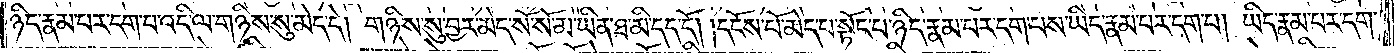ཉིད་རྣམ་པར་དག་པ་འདི་ལ་གཉིས་སུ་མེད་དེ། གཉིས་སུ་བྱར་མེད་སོ་སོ་མ་ཡིན་ཐ་མི་དད་དོ། །དངོས་པོ་མེད་པ་སྟོང་པ་ཉིད་རྣམ་པར་དག་པས་ཡིད་རྣམ་པར་དག་པ། ཡིད་རྣམ་པར་དག་
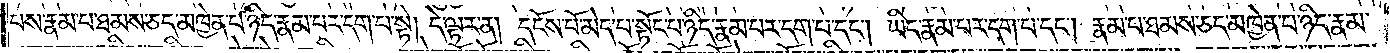པས་རྣམ་པ་ཐམས་ཅད་མཁྱེན་པ་ཉིད་རྣམ་པར་དག་པ་སྟེ། དེ་ལྟར་ན། དངོས་པོ་མེད་པ་སྟོང་པ་ཉིད་རྣམ་པར་དག་པ་དང༌། ཡིད་རྣམ་པར་དག་པ་དང༌། རྣམ་པ་ཐམས་ཅད་མཁྱེན་པ་ཉིད་རྣམ་
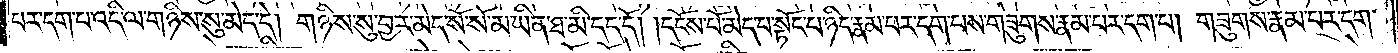པར་དག་པ་འདི་ལ་གཉིས་སུ་མེད་དེ། གཉིས་སུ་བྱར་མེད་སོ་སོ་མ་ཡིན་ཐ་མི་དད་དོ། །དངོས་པོ་མེད་པ་སྟོང་པ་ཉིད་རྣམ་པར་དག་པས་གཟུགས་རྣམ་པར་དག་པ། གཟུགས་རྣམ་པར་དག་
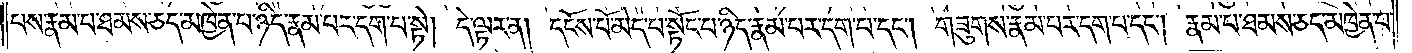པས་རྣམ་པ་ཐམས་ཅད་མཁྱེན་པ་ཉིད་རྣམ་པར་དག་པ་སྟེ། དེ་ལྟར་ན། དངོས་པོ་མེད་པ་སྟོང་པ་ཉིད་རྣམ་པར་དག་པ་དང༌། གཟུགས་རྣམ་པར་དག་པ་དང༌། རྣམ་པ་ཐམས་ཅད་མཁྱེན་པ་
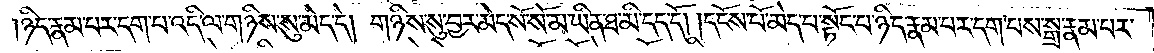ཉིད་རྣམ་པར་དག་པ་འདི་ལ་གཉིས་སུ་མེད་དེ། གཉིས་སུ་བྱར་མེད་སོ་སོ་མ་ཡིན་ཐ་མི་དད་དོ། །དངོས་པོ་མེད་པ་སྟོང་པ་ཉིད་རྣམ་པར་དག་པས་སྒྲ་རྣམ་པར་
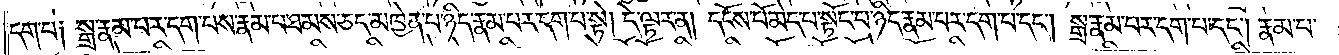དག་པ༑ སྒྲ་རྣམ་པར་དག་པས་རྣམ་པ་ཐམས་ཅད་མཁྱེན་པ་ཉིད་རྣམ་པར་དག་པ་སྟེ། དེ་ལྟར་ན། དངོས་པོ་མེད་པ་སྟོང་པ་ཉིད་རྣམ་པར་དག་པ་དང༌། སྒྲ་རྣམ་པར་དག་པ་དང༌། རྣམ་པ་
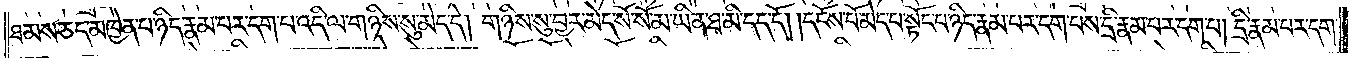ཐམས་ཅད་མཁྱེན་པ་ཉིད་རྣམ་པར་དག་པ་འདི་ལ་གཉིས་སུ་མེད་དེ། གཉིས་སུ་བྱར་མེད་སོ་སོ་མ་ཡིན་ཐ་མི་དད་དོ། །དངོས་པོ་མེད་པ་སྟོང་པ་ཉིད་རྣམ་པར་དག་པས་དྲི་རྣམ་པར་དག་པ། དྲི་རྣམ་པར་དག་
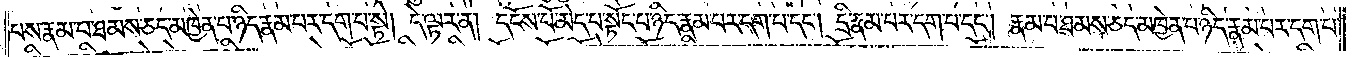པས་རྣམ་པ་ཐམས་ཅད་མཁྱེན་པ་ཉིད་རྣམ་པར་དག་པ་སྟེ། དེ་ལྟར་ན། དངོས་པོ་མེད་པ་སྟོང་པ་ཉིད་རྣམ་པར་དག་པ་དང༌། དྲི་རྣམ་པར་དག་པ་དང༌། རྣམ་པ་ཐམས་ཅད་མཁྱེན་པ་ཉིད་རྣམ་པར་དག་པ་
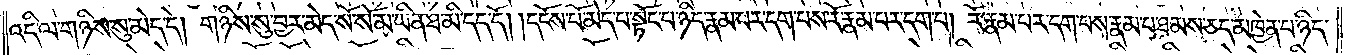འདི་ལ་གཉིས་སུ་མེད་དེ། གཉིས་སུ་བྱར་མེད་སོ་སོ་མ་ཡིན་ཐ་མི་དད་དོ། །དངོས་པོ་མེད་པ་སྟོང་པ་ཉིད་རྣམ་པར་དག་པས་རོ་རྣམ་པར་དག་པ། རོ་རྣམ་པར་དག་པས་རྣམ་པ་ཐམས་ཅད་མཁྱེན་པ་ཉིད་
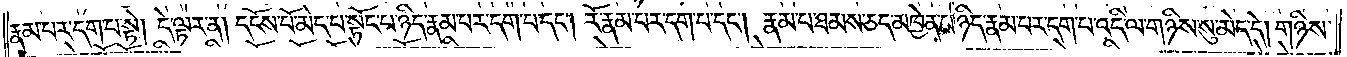རྣམ་པར་དག་པ་སྟེ། དེ་ལྟར་ན། དངོས་པོ་མེད་པ་སྟོང་པ་ཉིད་རྣམ་པར་དག་པར་དག་པ་དང༌། རོ་རྣམ་པར་དག་པ་དང༌། རྣམ་པ་ཐམས་ཅད་མཁྱེན་པ་ཉིད་རྣམ་པར་དག་པ་འདི་ལ་གཉིས་སུ་མེད་དེ། གཉིས་
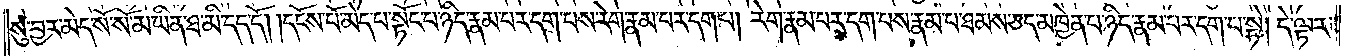སུ་བྱར་མེད་སོ་སོ་མ་ཡིན་ཐ་མི་དད་དོ། །དངོས་པོ་མེད་པ་སྟོང་པ་ཉིད་རྣམ་པར་དག་པས་རེག་རྣམ་པར་དག་པ། རེག་རྣམ་པར་དག་པས་རྣམ་པ་ཐམས་ཅད་མཁྱེན་པ་ཉིད་རྣམ་པར་དག་པ་སྟེ། དེ་ལྟར་
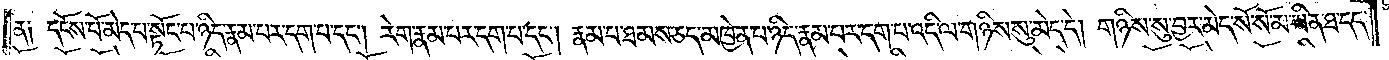ན༑ དངོས་པོ་མེད་པ་སྟོང་པ་ཉིད་རྣམ་པར་དག་པ་དང༌། རེག་རྣམ་པར་དག་པ་དང༌། རྣམ་པ་ཐམས་ཅད་མཁྱེན་པ་ཉིད་རྣམ་པར་དག་པ་འདི་ལ་གཉིས་སུ་མེད་དེ། གཉིས་སུ་བྱར་མེད་སོ་སོ་མ་ཡིན་ཐ་དད་
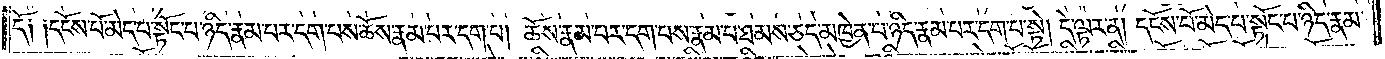དོ༑ ༑དངོས་པོ་མེད་པ་སྟོང་པ་ཉིད་རྣམ་པར་དག་པས་ཆོས་རྣམ་པར་དག་པ། ཆོས་རྣམ་པར་དག་པས་རྣམ་པ་ཐམས་ཅད་མཁྱེན་པ་ཉིད་རྣམ་པར་དག་པ་སྟེ། དེ་ལྟར་ན། དངོས་པོ་མེད་པ་སྟོང་པ་ཉིད་རྣམ་
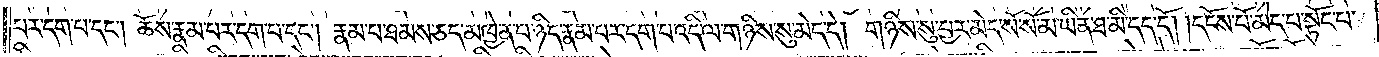པར་དག་པ་དང༌། ཆོས་རྣམ་པར་དག་པ་དང༌། རྣམ་པ་ཐམས་ཅད་མཁྱེན་པ་ཉིད་རྣམ་པར་དག་པ་འདི་ལ་གཉིས་སུ་མེད་དེ། གཉིས་སུ་བྱར་མེད་སོ་སོ་མ་ཡིན་ཐ་མི་དད་དོ། །དངོས་པོ་མེད་པ་སྟོང་པ་
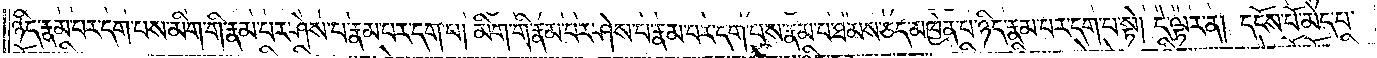ཉིད་རྣམ་པར་དག་པས་མིག་གི་རྣམ་པར་ཤེས་པ་རྣམ་པར་དག་པ། མིག་གི་རྣམ་པར་ཤེས་པ་རྣམ་པར་དག་པས་རྣམ་པ་ཐམས་ཅད་མཁྱེན་པ་ཉིད་རྣམ་པར་དག་པ་སྟེ། དེ་ལྟར་ན། དངོས་པོ་མེད་པ་
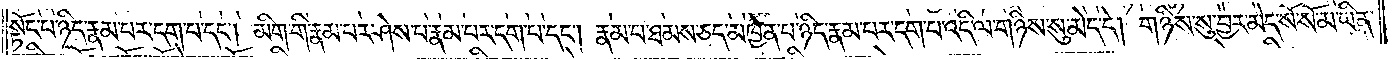སྟོང་པ་ཉིད་རྣམ་པར་དག་པ་དང༌། མིག་གི་རྣམ་པར་ཤེས་པ་རྣམ་པར་དག་པ་དང༌། རྣམ་པ་ཐམས་ཅད་མཁྱེན་པ་ཉིད་རྣམ་པར་དག་པ་འདི་ལ་གཉིས་སུ་མེད་དེ། གཉིས་སུ་བྱར་མེད་སོ་སོ་མ་ཡིན་
